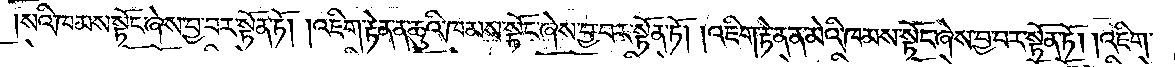སའི་ཁམས་སྟོང་ཞེས་བྱ་བར་སྟོན་ཏོ། །འཇིག་རྟེན་ན་ཆུའི་ཁམས་སྟོང་ཞེས་བྱ་བར་སྟོན་ཏོ། །འཇིག་རྟེན་ན་མེའི་ཁམས་སྟོང་ཞེས་བྱ་བར་སྟོན་ཏོ། །འཇིག་
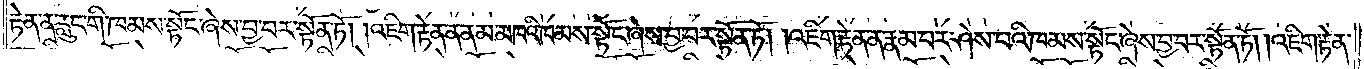རྟེན་ན་རླུང་གི་ཁམས་སྟོང་ཞེས་བྱ་བར་སྟོན་ཏོ། །འཇིག་རྟེན་ན་ནམ་མཁའི་ཁམས་སྟོང་ཞེས་བྱ་བར་སྟོན་ཏོ། །འཇིག་རྟེན་ན་རྣམ་པར་ཤེས་པའི་ཁམས་སྟོང་ཞེས་བྱ་བར་སྟོན་ཏོ། །འཇིག་རྟེན་
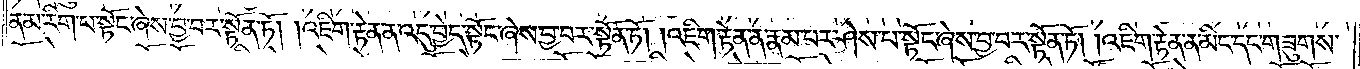ན་མ་རིག་པ་སྟོང་ཞེས་བྱ་བར་སྟོན་ཏོ། །འཇིག་རྟེན་ན་འདུ་བྱེད་སྟོང་ཞེས་བྱ་བར་སྟོན་ཏོ། །འཇིག་རྟེན་ན་རྣམ་པར་ཤེས་པ་སྟོང་ཞེས་བྱ་བར་སྟོན་ཏོ། །འཇིག་རྟེན་ན་མིང་དང་གཟུགས་
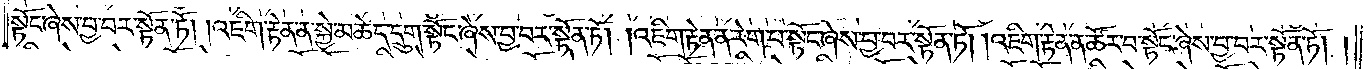སྟོང་ཞེས་བྱ་བར་སྟོན་ཏོ། །འཇིག་རྟེན་ན་སྐྱེ་མཆེད་དྲུག་སྟོང་ཞེས་བྱ་བར་སྟོན་ཏོ། །འཇིག་རྟེན་ན་རེག་པ་སྟོང་ཞེས་བྱ་བར་སྟོན་ཏོ། །འཇིག་རྟེན་ན་ཚོར་བ་སྟོང་ཞེས་བྱ་བར་སྟོན་ཏོ། །
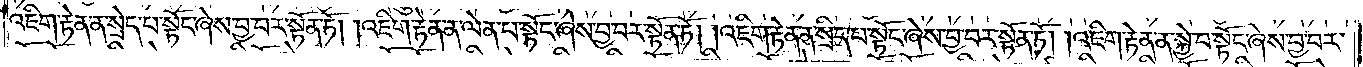འཇིག་རྟེན་ན་སྲེད་པ་སྟོང་ཞེས་བྱ་བར་སྟོན་ཏོ། །འཇིག་རྟེན་ན་ལེན་པ་སྟོང་ཞེས་བྱ་བར་སྟོན་ཏོ། །འཇིག་རྟེན་ན་སྲིད་པ་སྟོང་ཞེས་བྱ་བར་སྟོན་ཏོ། །འཇིག་རྟེན་ན་སྐྱེ་བ་སྟོང་ཞེས་བྱ་བར་
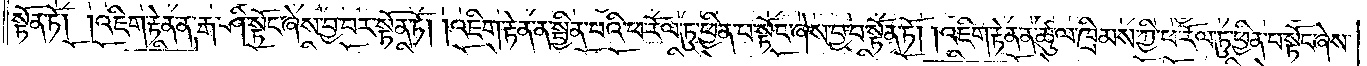སྟོན་ཏོ། །འཇིག་རྟེན་ན་རྒ་ཤི་སྟོང་ཞེས་བྱ་བར་སྟོན་ཏོ། །འཇིག་རྟེན་ན་སྦྱིན་པའི་ཕ་རོལ་ཏུ་ཕྱིན་པ་སྟོང་ཞེས་བྱ་བར་སྟོན་ཏོ། །འཇིག་རྟེན་ན་ཚུལ་ཁྲིམས་ཀྱི་ཕ་རོལ་ཏུ་ཕྱིན་པ་སྟོང་ཞེས་
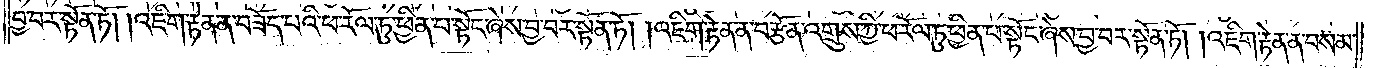བྱ་བར་སྟོན་ཏོ། །འཇིག་རྟེན་ན་བཟོད་པའི་ཕ་རོལ་ཏུ་ཕྱིན་པ་སྟོང་ཞེས་བྱ་བར་སྟོན་ཏོ། །འཇིག་རྟེན་ན་བརྩོན་འགྲུས་ཀྱི་ཕ་རོལ་ཏུ་ཕྱིན་པ་སྟོང་ཞེས་བྱ་བར་སྟོན་ཏོ། །འཇིག་རྟེན་ན་བསམ་
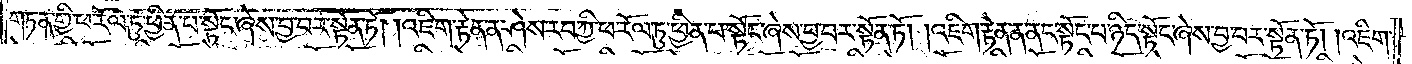གཏན་གྱི་ཕ་རོལ་ཏུ་ཕྱིན་པ་སྟོང་ཞེས་བྱ་བར་སྟོན་ཏོ། །འཇིག་རྟེན་ན་ཤེས་རབ་ཀྱི་ཕ་རོལ་ཏུ་ཕྱིན་པ་སྟོང་ཞེས་བྱ་བར་སྟོན་ཏོ། །འཇིག་རྟེན་ན་ནང་སྟོང་པ་ཉིད་སྟོང་ཞེས་བྱ་བར་སྟོན་ཏོ། །འཇིག་
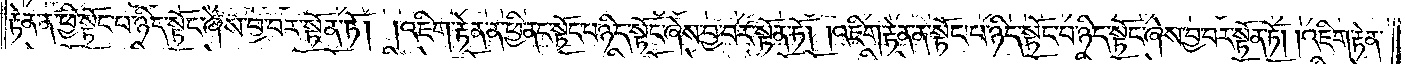རྟེན་ན་ཕྱི་སྟོང་པ་ཉིད་སྟོང་ཞེས་བྱ་བར་སྟོན་ཏོ། །འཇིག་རྟེན་ན་ཕྱི་ནང་སྟོང་པ་ཉིད་སྟོང་ཞེས་བྱ་བར་སྟོན་ཏོ། །འཇིག་རྟེན་ན་སྟོང་པ་ཉིད་སྟོང་པ་ཉིད་སྟོང་ཞེས་བྱ་བར་སྟོན་ཏོ། །འཇིག་རྟེན་
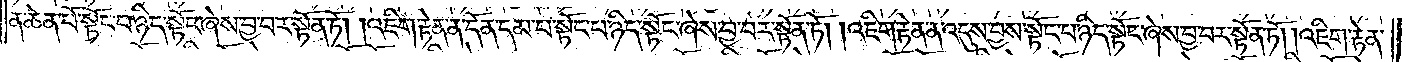ན་ཆེན་པོ་སྟོང་པ་ཉིད་སྟོང་ཞེས་བྱ་བར་སྟོན་ཏོ། །འཇིག་རྟེན་ན་དོན་དམ་པ་སྟོང་པ་ཉིད་སྟོང་ཞེས་བྱ་བར་སྟོན་ཏོ། །འཇིག་རྟེན་ན་འདུས་བྱས་སྟོང་པ་ཉིད་སྟོང་ཞེས་བྱ་བར་སྟོན་ཏོ། །འཇིག་རྟེན་
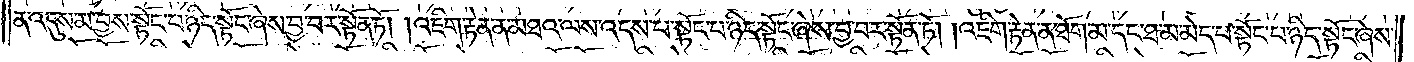ན་འདུས་མ་བྱས་སྟོང་པ་ཉིད་སྟོང་ཞེས་བྱ་བར་སྟོན་ཏོ། །འཇིག་རྟེན་ན་མཐའ་ལས་འདས་པ་སྟོང་པ་ཉིད་སྟོང་ཞེས་བྱ་བར་སྟོན་ཏོ། །འཇིག་རྟེན་ན་ཐོག་མ་དང་ཐ་མ་མེད་པ་སྟོང་པ་ཉིད་སྟོང་ཞེས་
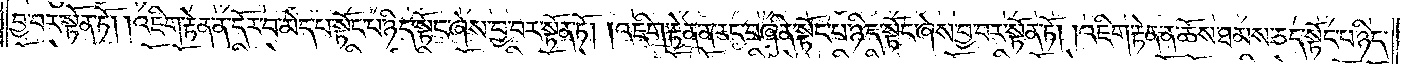བྱ་བར་སྟོན་ཏོ། །འཇིག་རྟེན་ན་དོར་བ་མེད་པ་སྟོང་པ་ཉིད་སྟོང་ཞེས་བྱ་བར་སྟོན་ཏོ། །འཇིག་རྟེན་ན་རང་བཞིན་སྟོང་པ་ཉིད་སྟོང་ཞེས་བྱ་བར་སྟོན་ཏོ། །འཇིག་རྟེན་ན་ཆོས་ཐམས་ཅད་སྟོང་པ་ཉིད་
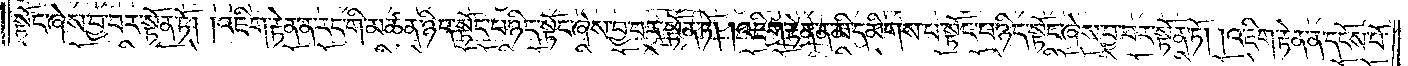སྟོང་ཞེས་བྱ་བར་སྟོན་ཏོ། །འཇིག་རྟེན་ན་རང་གི་མཚན་ཉིད་སྟོང་པ་ཉིད་སྟོང་ཞེས་བྱ་བར་སྟོན་ཏོ། །འཇིག་རྟེན་ན་མི་དམིགས་པ་སྟོང་པ་ཉིད་སྟོང་ཞེས་བྱ་བར་སྟོན་ཏོ། །འཇིག་རྟེན་ན་དངོས་པོ་
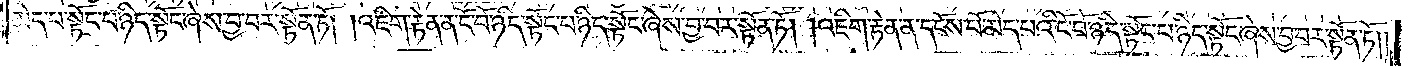མེད་པ་སྟོང་པ་ཉིད་སྟོང་ཞེས་བྱ་བར་སྟོན་ཏོ། །འཇིག་རྟེན་ན་ངོ་བོ་ཉིད་སྟོང་པ་ཉིད་སྟོང་ཞེས་བྱ་བར་སྟོན་ཏོ། །འཇིག་རྟེན་ན་དངོས་པོ་མེད་པའི་ངོ་བོ་ཉིད་སྟོང་པ་ཉིད་སྟོང་ཞེས་བྱ་བར་སྟོན་ཏོ། །
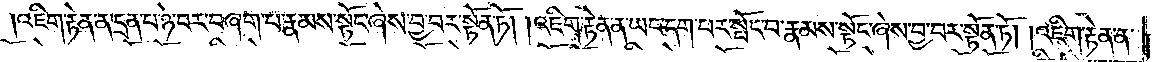འཇིག་རྟེན་ན་དྲན་པ་ཉེ་བར་བཞག་པ་རྣམས་སྟོང་ཞེས་བྱ་བར་སྟོན་ཏོ། །འཇིག་རྟེན་ན་ཡང་དག་པར་སྤོང་བ་རྣམས་སྟོང་ཞེས་བྱ་བར་སྟོན་ཏོ། །འཇིག་རྟེན་ན་
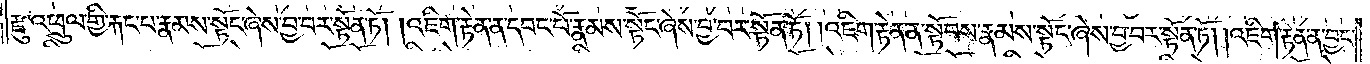རྫུ་འཕྲུལ་གྱི་རྐང་པ་རྣམས་སྟོང་ཞེས་བྱ་བར་སྟོན་ཏོ། །འཇིག་རྟེན་ན་དབང་པོ་རྣམས་སྟོང་ཞེས་བྱ་བར་སྟོན་ཏོ། །འཇིག་རྟེན་ན་སྟོབས་རྣམས་སྟོང་ཞེས་བྱ་བར་སྟོན་ཏོ། །འཇིག་རྟེན་ན་བྱང་
